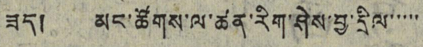ཟད། མང་ཚོགས་ལ་ཚན་རིག་ཤེས་བྱ་དྲིལ་་་་་
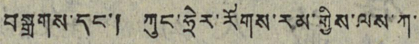བསྒྲགས་དང་། ཀུང་ཧྲེར་རོགས་རམ་གྱིས་ལས་ཀ་
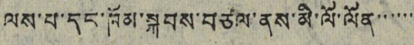ལས་པ་དང་ཁོམ་སྐབས་བཙལ་ནས་མི་ལོ་ལོན་་་་་་
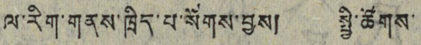ལ་རིག་གནས་ཁྲིད་པ་སོགས་བྱས། སྤྱི་ཚོགས་
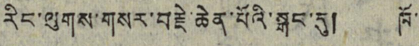རིང་ལུགས་གསར་བརྗེ་ཆེན་པོའི་སྒང་དུ། ཁོ་
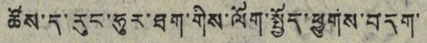ཚོས་ད་རུང་ཧུར་ཐག་གིས་ལོག་སྤྱོད་ཕྱུགས་བདག་
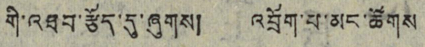གི་འཐབ་རྩོད་དུ་ཞུགས། འབྲོག་པ་མང་ཚོགས་
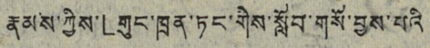རྣམས་ཀྱིས་「གུང་ཁྲན་ཏང་གིས་སློབ་གསོ་བྱས་པའི
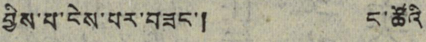བྱིས་པ་ངེས་པར་བཟང་། ང་ཚོའི་
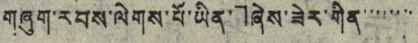གཞུག་རབས་ལེགས་པོ་ཡིན་」ཞེས་ཟེར་གིན་་་་་་་
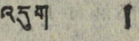འདུག  །
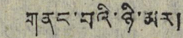གནང་བའི་ཉི་མར།
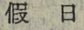假 日
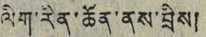ལིག་རིན་ཆོན་ནས་བྲིས།
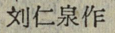刘仁泉划仁宗作
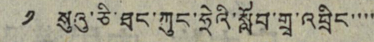༡ སུའུ་ཅི་ཐང་ཀུང་ཧྲེའི་སློབ་གྲྭ་འབྲིང་་་་
